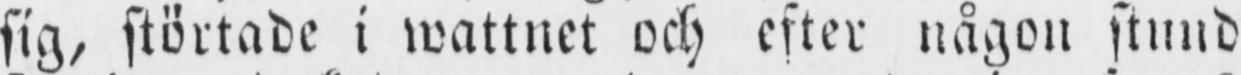sig, störtade i wattnet och efter någon stund
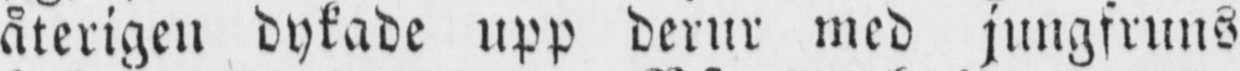återigen dykade upp derur med jungfruns
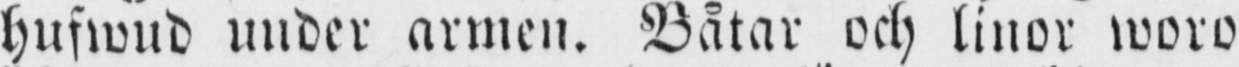hufwud under armen. Båtar och linor woro
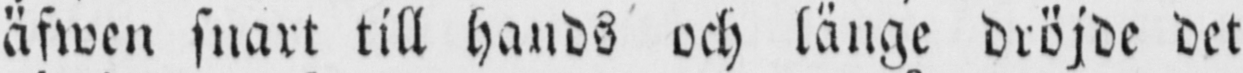äfwen snart till hands och länge dröjde det
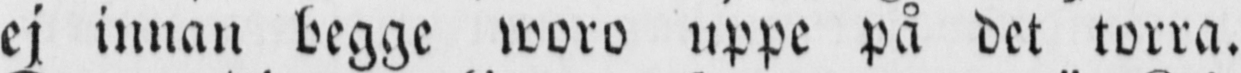ej innan begge woro uppe på det torra.
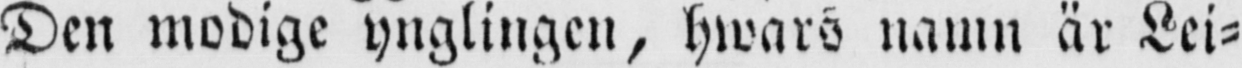Den modige ynglingen, hwars namn är Lei-
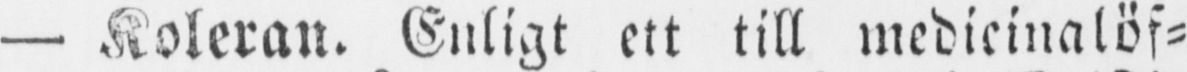— Koleran. Enligt ett till medicinalöf-
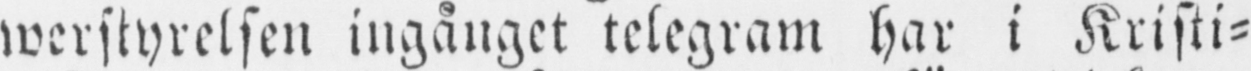werstyrelsen ingånget telegram har i Kristi-
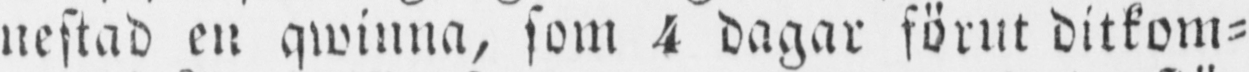nestad en qwinna, som 4 dagar förut ditkom-
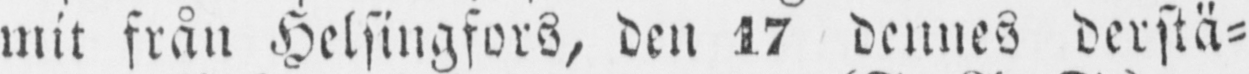mit från Helsingfors, den 17 dennes derstä-
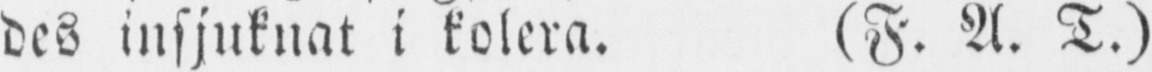des insjuknat i kolera. (F. A. T.)
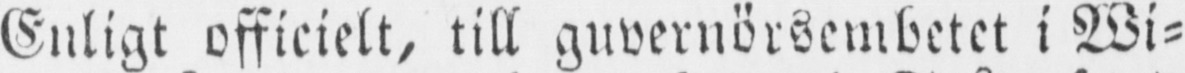Enligt officielt, till guvernörsembetet i Wi-
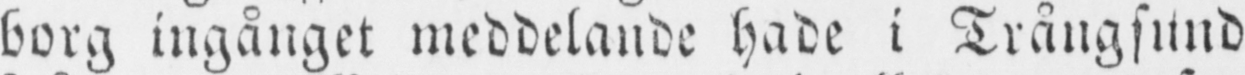borg ingånget meddelande hade i Trångsund
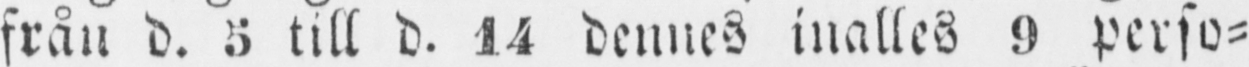från d. 5 till d. 14 dennes inalles 9 perso-
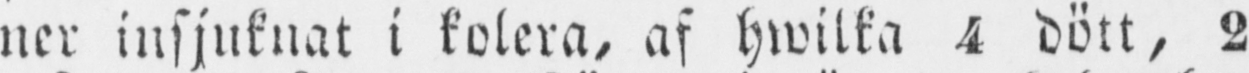ner insjuknat i kolera, af hwilka 4 dött, 2
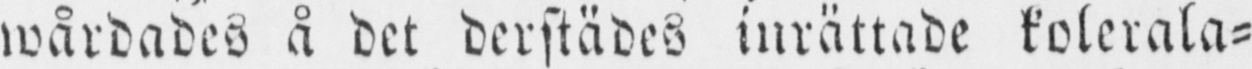wårdades å det derstädes inrättade kolerala-
